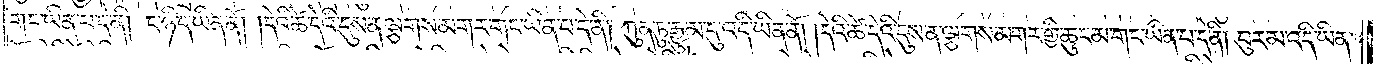གང་ཡིན་པ་དེ་ནི། ང་ཉིད་ཡིན་ནོ། །དེའི་ཚེ་དེའི་དུས་ན་ལྕགས་མགར་གང་ཡིན་པ་དེ་ནི། ཀུན་ཏུ་རྒྱུ་མ་དུ་འདི་ཡིན་ནོ། །དེའི་ཚེ་དེའི་དུས་ན་ལྕགས་མགར་གྱི་ཆུང་མ་གང་ཡིན་པ་དེ་ནི། བུར་མ་འདི་ཡིན་
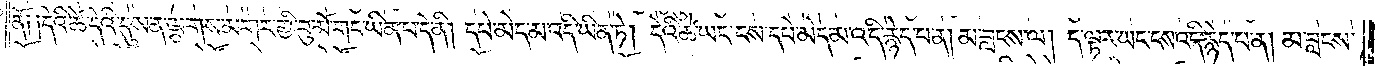ནོ༑ ༑དེའི་ཚེ་དེའི་དུས་ན་ལྕགས་མགར་གྱི་བུ་མོ་གང་ཡིན་པ་དེ་ནི། དཔེ་མེད་མ་འདི་ཡིན་ཏེ། དེའི་ཚེ་ཡང་ངས་དཔེ་མེད་མ་འདི་རྙེད་པ་ན། མ་བླངས་ལ། ད་ལྟར་ཡང་ངས་འདི་རྙེད་པ་ན། མ་བླངས་
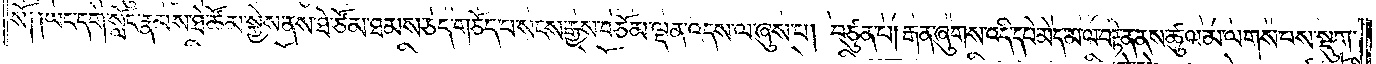སོ༑ ༑ཡང་དགེ་སློང་རྣམས་ཐེ་ཚོམ་སྐྱེས་ནས་ཐེ་ཚོམ་ཐམས་ཅད་གཅོད་པ་སངས་རྒྱས་བཅོམ་ལྡན་འདས་ལ་ཞུས་པ། བཙུན་པ། རྒན་ཞུགས་འདི་དཔེ་མེད་མ་ལ་བརྟེན་ནས་ཚུལ་མ་ལགས་པས་སྡུག་
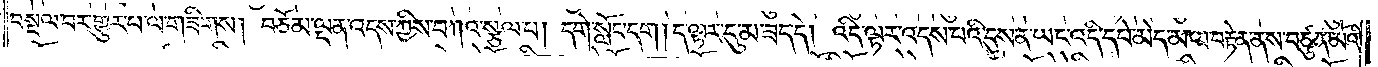བསྔལ་པར་གྱུར་པ་ལ་གཟིགས། བཅོམ་ལྡན་འདས་ཀྱིས་བཀའ་སྩལ་པ། དགེ་སློང་དག །ད་ལྟར་དུ་མ་ཟད་དེ། འདི་ལྟར་འདས་པའི་དུས་ན་ཡང་འདི་དཔེ་མེད་མ་ལ་བརྟེན་ནས་བཙུན་མོའི་
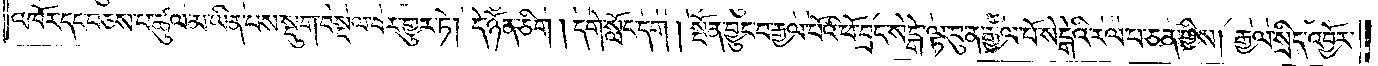འཁོར་དང་བཅས་པ་ཚུལ་མ་ཡིན་པས་སྡུག་བསྔལ་བར་གྱུར་ཏེ། དེ་ཉོན་ཅིག །དགེ་སློང་དག །སྔོན་བྱུང་བ་རྒྱལ་པོའི་ཕོ་བྲང་སེངྒེ་ལྟ་བུ་ན་རྒྱལ་པོ་སེངྒེའི་རལ་པ་ཅན་གྱིས། རྒྱལ་སྲིད་འབྱོར་
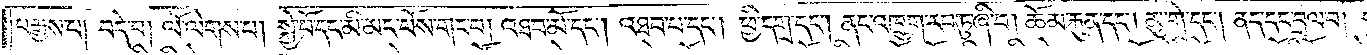པ་རྒྱས་པ། བདེ་བ། ལོ་ལེགས་པ། སྐྱེ་བོ་དང་མི་མང་པོས་གང་བ། འཐབ་མོ་དང༌། འཐབ་པ་དང༌། ཕྱི་དགྲ་དང༌། ནང་འཁྲུག་རབ་ཏུ་ཞི་བ། ཆོམ་རྐུན་དང༌། མུ་གེ་དང༌། ནད་དང་བྲལ་བ།
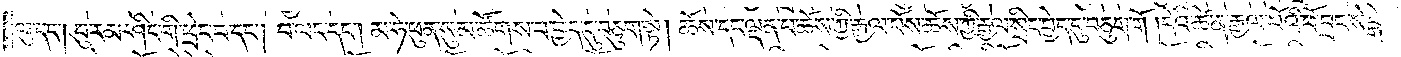ལུ་དང༌། བུ་རམ་ཤིང་གི་ཕྲེང་བ་དང༌། བ་ལང་དང༌། མ་ཧེ་ཕུན་སུམ་ཚོགས་པ་བྱེད་དུ་བཅུག་སྟེ། ཆོས་དང་ལྡན་པ་ཆོས་ཀྱི་རྒྱལ་པོས་ཆོས་ཀྱི་རྒྱལ་སྲིད་བྱེད་དུ་བཅུག་གོ །དེའི་ཚེ་ན་རྒྱལ་པོའི་ཕོ་བྲང་སེངྒེ་
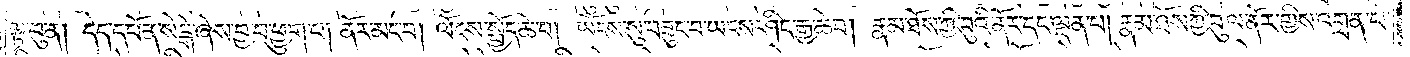ལྟ་བུ་ན། དེད་དཔོན་སེངྒེ་ཞེས་བྱ་བ་ཕྱུག་པ། ནོར་མང་བ། ལོངས་སྤྱོད་ཆེ་བ། ཡོངས་སུ་བཟུང་བ་ཡངས་ཤིང་རྒྱ་ཆེ་བ། རྣམ་ཐོས་ཀྱི་བུའི་ནོར་དང་ལྡན་པ། རྣམ་ཐོས་ཀྱི་བུ་ལ་ནོར་གྱིས་འགྲན་པ་
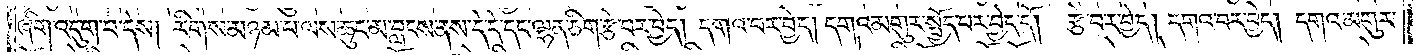ཞིག་འདུག་པ་དེས། རིགས་མཉམ་པ་ལས་ཆུང་མ་བླངས་ནས་དེ་དེ་དང་ལྷན་ཅིག་རྩེ་བར་བྱེད། དགའ་བར་བྱེད། དགའ་མགུར་སྤྱོད་པར་བྱེད་དོ། །རྩེ་བར་བྱེད། དགའ་བར་བྱེད། དགའ་མགུར་
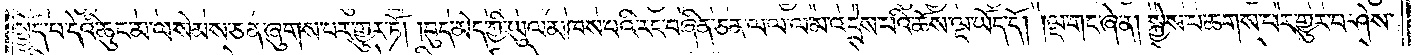སྤྱོད་པ་དེའི་ཆུང་མ་ལ་སེམས་ཅན་ཞུགས་པར་གྱུར་ཏོ། །བུད་མེད་ཀྱི་ཡུལ་མཁས་པའི་རང་བཞིན་ཅན་ལ་ལ་མ་འདྲེས་པའི་ཆོས་ལྔ་ཡོད་དོ། །ལྔ་གང་ཞེ་ན། སྐྱེས་པ་ཆགས་པར་གྱུར་པ་ཤེས་
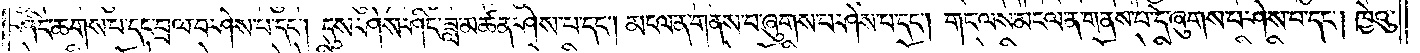ཤིང་ཆགས་པ་དང་བྲལ་བ་ཤེས་པ་དང༌། དུས་ཤེས་ཤིང་ཟླ་མཚན་ཤེས་པ་དང༌། མངལ་ན་གནས་པ་ཞུགས་པ་ཤེས་པ་དང༌། གང་ལས་མངལ་ན་གནས་པ་དེ་ཞུགས་པ་ཤེས་པ་དང༌། ཁྱེའུ་
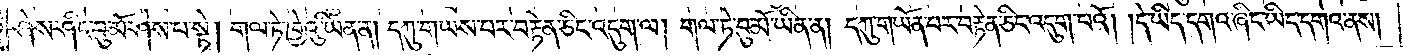ཤེས་ཤིང་བུ་མོ་ཤེས་པ་སྟེ། གལ་ཏེ་ཁྱེའུ་ཡིན་ན། དཀུ་གཡས་པར་བརྟེན་ཅིང་འདུག་ལ། གལ་ཏེ་བུ་མོ་ཡིན་ན། དཀུ་གཡོན་པར་བརྟེན་ཅིང་འདུག་པའོ། །དེ་ཡིད་དགའ་ཞིང་ཡིད་དགའ་ནས།
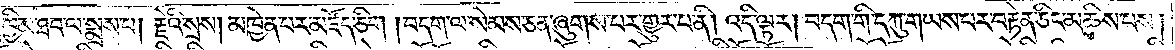ཁྱིམ་ཐབ་ལ་སྨྲས་པ། རྗེའི་སྲས། མཁྱེན་པར་མཛོད་ཅིག །བདག་ལ་སེམས་ཅན་ཞུགས་པར་གྱུར་པ་ནི། འདི་ལྟར། བདག་གི་དཀུ་གཡས་པར་བརྟེན་ཅིང་མཆིས་པས།
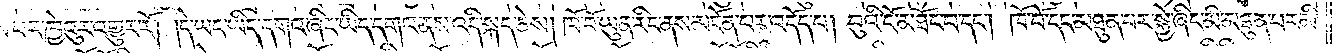ངེས་པར་ཁྱེའུར་འགྱུར་རོ། །དེ་ཡང་ཡིད་དགའ་ཞིང་ཡིད་དགའ་ནས་འདི་སྐད་ཅེས། ཁོ་བོ་ཡུན་རིང་ནས་མངོན་པར་འདོད་པ། བུའི་ངོ་མཐོང་བ་དང༌། ཁོ་བོ་དང་མཐུན་པར་སྐྱེ་ཞིང་མི་མཐུན་པར་མི་
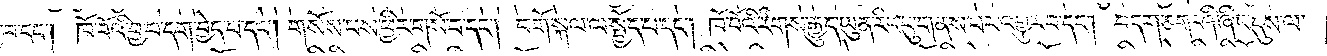བ་དང༌། ཁོ་བོའི་བྱ་བ་དག་བྱེད་པ་དང༌། གསོས་པས་ཕྱིར་གསོ་བ་དང༌། བགོ་སྐལ་ལ་སྤྱོད་པ་དང༌། ཁོ་བོའི་རིགས་རྒྱུད་ཡུན་རིང་དུ་གནས་པར་འགྱུར་བ་དང༌། བདག་ཅག་ཤི་ཞིང་དུས་ལ་
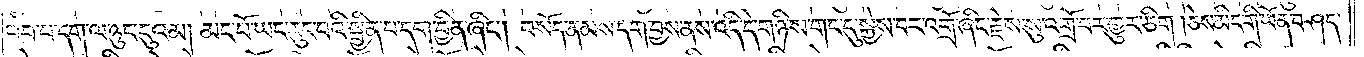བབ་པ་དག་ལ་ཉུང་ངུའམ། མང་པོ་ཡང་རུང་བའི་སྦྱིན་པ་དག་བྱིན་ཞིང༌། བསོད་ནམས་དག་བྱས་ནས་འདི་དེ་གཉིས་གང་དུ་སྐྱེས་བར་འགྲོ་ཞིང་རྗེས་སུ་འགྲོ་བར་གྱུར་ཅིག །ཅེས་མིང་གི་ཡོན་བཤད་
